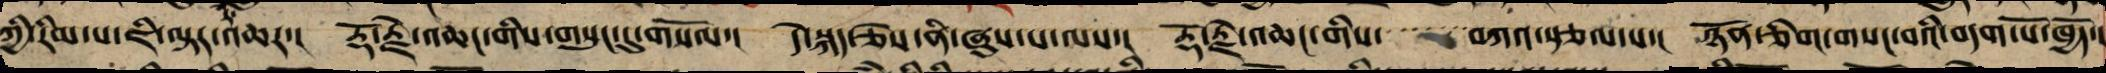ཀྱི་རིམ་པ་ཇི་ལྟར་འཆར་། རྡོ་རྗེ་འཆང་གིས་གསུང་དུ་གསོལ་། དེ་སྐད་ཅེས་ནི་ཞུས་པ་ལས་། རྡོ་རྗེ་འཆང་གིས་་་་་་་བཀའ་སྩལ་པ་། ཉོན་ཅིག་གསང་བའི་བདག་པོ་ཁྱོད་།
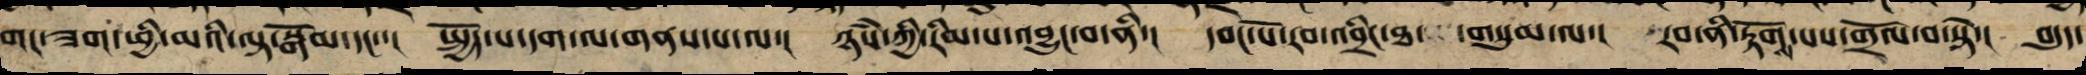གང་ཟག་ཕྱི་མ་ལྟ་སྒོམ་དང་་། སྤྱོད་པ་དག་ལ་གནས་པ་ལ་། ཉཾས་ཀྱི་རིམ་པ་འབྱུང་བ་ནི་། དབང་པོ་རབ་འབྲིང་ཐ་གསུམ་ལས་། རབ་ནི་རྟོགས་པས་གྲོལ་བ་སྟེ་། བདུད་
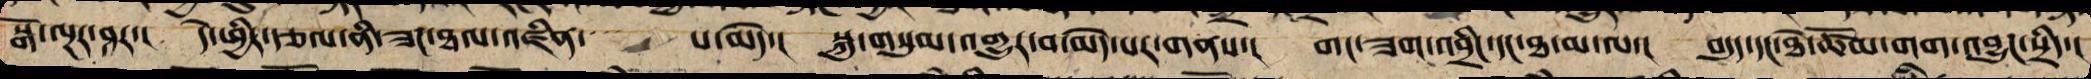སྒོ་ལྔར་ཤར་། དེ་ཕྱིར་རྩལ་ནི་ཟང་ཐལ་འཛིན་་་  པ་མེད་། སྐུ་གསུམ་འགྱུར་བ་མེད་པར་གནས་། གང་ཟག་འབྲིང་དང་ཐ་མ་ལ་། བདུད་དང་ཐེ་ཚོམ་གག་འབྱུང་སྲིད་།
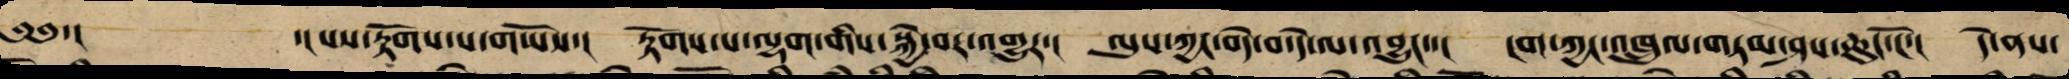༄༅་།  ་།པས་རྟོག་པ་གཡོས་། རྟོགས་པ་ལྷག་གིས་སྐྱེ་བར་འགྱུར་། ལུས་ཀྱང་བདེ་བ་དེ་ལ་འབྱུང་་། ངག་ཀྱང་འཁྲུལ་གཏམ་ཤས་ཆུང་ངོ་། དེ་ནས་
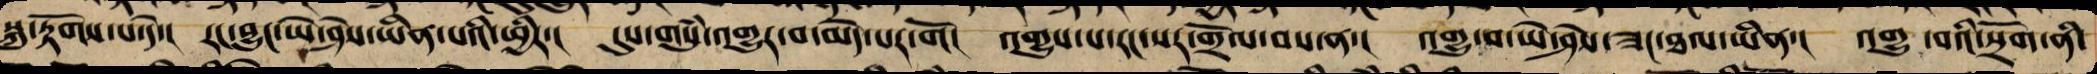སྐུ་རྟོགས་པ་སྟེ་། རང་བྱུང་ཡེ་ཤེས་ཡིན་པའི་ཕྱིར་། དུས་གསུཾ་འགྱུར་བ་མེད་པར་གོ་། འགྱུས་པ་རང་སར་གྲོལ་བས་ན་། འགྱུ་བ་ཡེ་ཤེས་ཟང་ཐལ་ཡིན་། འགྱུ་བའི་སྲོག་ནི་
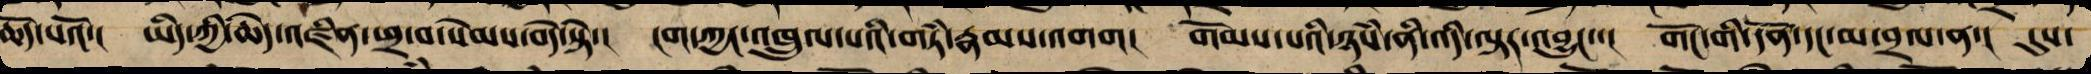ཆོད་པའོ་། ཡིད་ནི་ཆེད་འཛིན་བྲལ་བས་སེམས་བདེ་སྟེ་། ངག་ཀྱང་འཁྲུལ་པའི་གཏཾ་རྣམས་འགག། གོམས་པའི་ཉཾས་ནི་འདི་ལྟར་འབྱུང་་། གོང་གི་དོན་དང་མ་བྲལ་བ་། དུས་
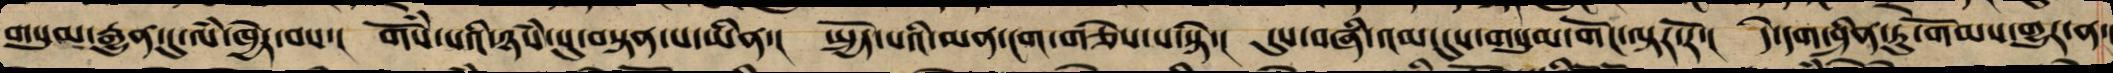གསུམ་རྒྱུན་ཏུ་ལཾ་ཁྱེར་བས་། གོཾས་པའི་ཉཾས་སུ་བསྟན་པ་ཡིན་། སྤྱོད་པའི་མན་ངག་ཅེས་པ་སྟེ་། དུས་བཞི་འམ་དུས་གསུམ་གོང་ལྟར་རོ་། དེ་དག་ཤིན་ཏུ་གོམས་གྱུར་ན་།
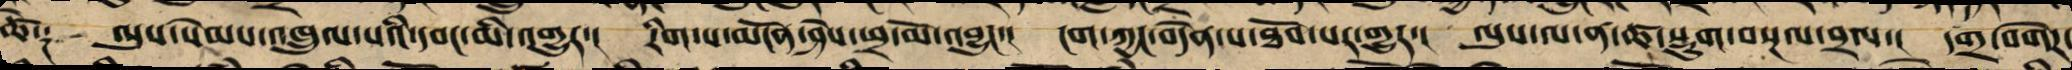ཚེ༑ ལུས་སེམས་འཁྲུལ་པའི་དབང་མི་འགྱུར་། རིག་པ་མངོན་ཤེས་ཕྲ་མོ་འབྱུང་། ངག་ཀྱང་བདེན་པ་ཐོབ་པར་འགྱུར་། ལུས་ལ་ན་ཚ་སྡུག་བསྔལ་བྲལ་། དགྲ་བགེཌ་
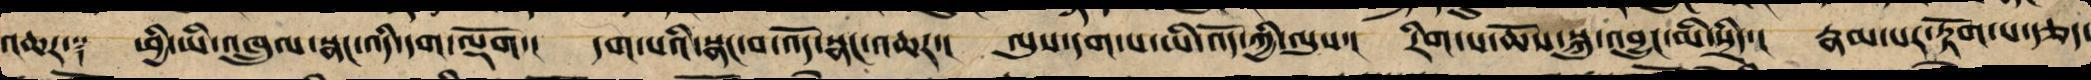འཆར༑ ཕྱི་ཡི་འཁྲུལ་སྣང་འདི་དག་ལྡོག། དག་པའི་སྣང་བ་འོད་སྣང་འཆར་། ལུས་དག་པ་ཡི་འོད་ཀྱི་ལུས་། རིག་པ་ཆོས་སྐུ་འབྱུང་མི་སྲིད་། རྣམ་པར་རྟོག་པ་རྩད་
